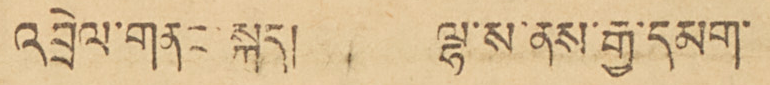འབྲེལ་གནང་སྐད། ལྷ་ས་ནས་རྒྱ་དམག་
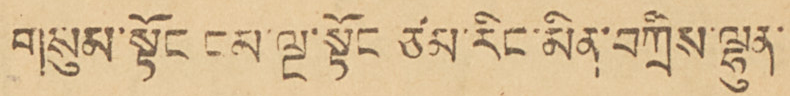གསུམ་སྟོང ངམ་ལྔ་སྟོང ཙམ་རིང་མིན་བཀྲིས་ལྷུན་
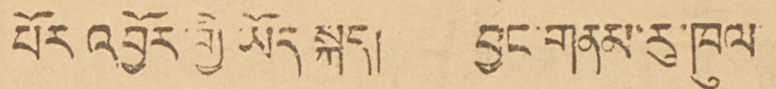པོར འབྱོར་གྱི ཡོད སྐད། བྱང་གནམ་རུ་ཁུལ
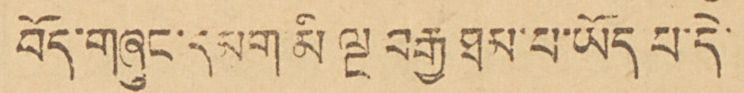བོད་གཞུང་དམག མི ལྔ བརྒྱ ཐམ་པ་ཡོད པ་དེ་
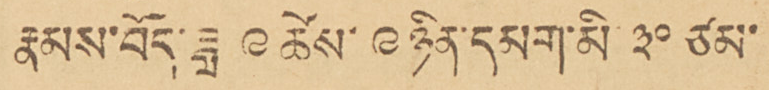རྣམས་བོད་ཟླ ༩ ཚེས་ ༩ ཉིན་དམག་མི ༣༠ ཙམ་
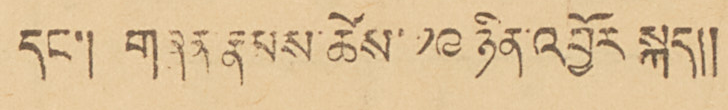དང་། གཞན རྣམས་ཚེས་ ༡༩ ཉིན་འབྱོར སྐད།།
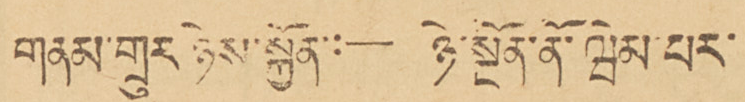གནམ་གྲུར ཉེས་སྐྱོན་— ཉེ་སྔོན་ནོ་ཝེམ་པར་
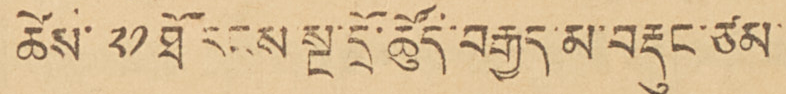ཚེས་ ༢༡ ཐོ རངས སྔ་དྲོ་ཚོུད་བརྒྱད་མ་བརྡུང་ཙམ་
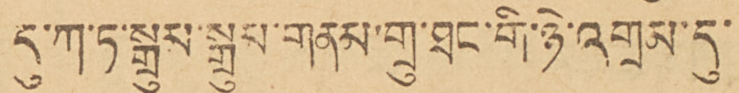དུ་ཀ་ཏ་སྒྲུམ་སྒྲུམ་གནམ་གྲུ་ཐང་གི་ཉེ་འགྲམ་དུ་
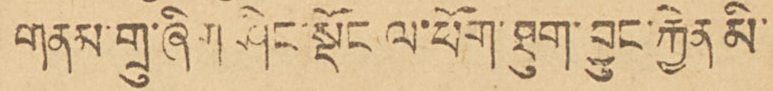གནམ་གྲུ་ཞིག ཤིང་སྡོང ལ་ཕོག་ཐུག་བྱུང་རྐྱེན མི་
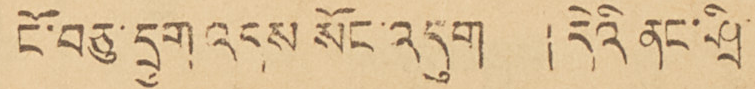ངོ་བཅུ་དྲུག འདས སོང་འདུག །དེའི ནང་ཤྲི་
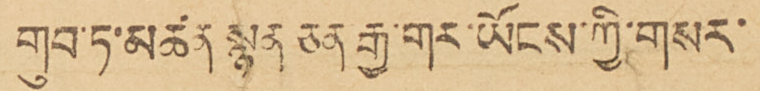གུབ་ཏུ་མཚན་སྙན ཅན་རྒྱ་གར་ཡོངས་ཀྱི་གསར་
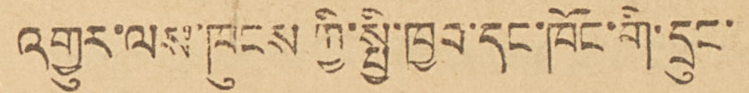འགྱུར་ལས་ཁུངས ཀྱི་སྤྱི་ཁྱབ་དང་ཁོང་གི་དྲུང་
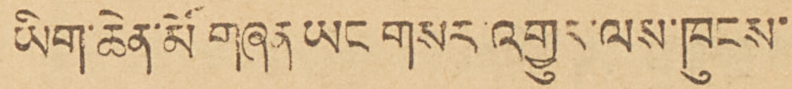ཡིག་ཆེན་མོ གཞན ཡང གསར་འགྱུར་ལས་ཁུངས་
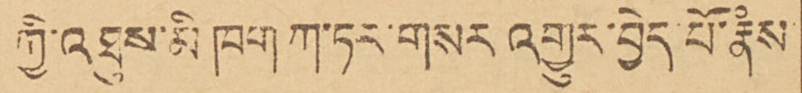ཀྱི་འཐུས་མི ཁག ཀ་ཏར་གསར འགྱུར་བྱེད་པོ་རྣཾས
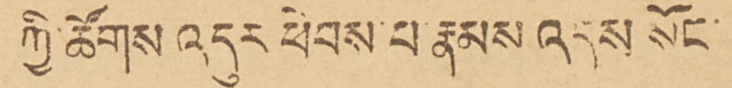ཀྱི་ཚོགས འདུར ཕེབས་པ་རྣམས འདས སོང་
